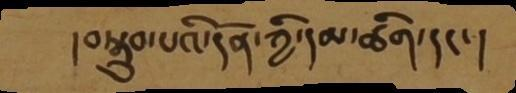།བསྒྲུབ་པའི་དོན་ཀྱི་དམ་ཚིག་དང་།
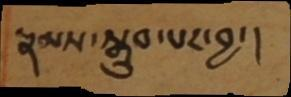རྣམས་སྒྲུབ་པར་བྱ་།
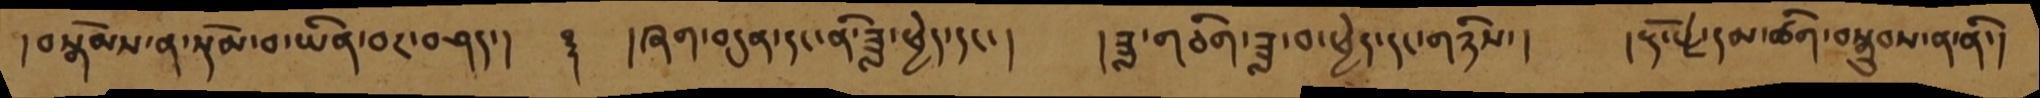།བསྒོམས་ན་སྡོམ་བ་ཡིན་བར་བཤད་།   ࿑  །ཞག་བདུན་དང་ནི་ཟླ་ཕྱེད་དང་།  །ཟླ་གཅིག་ཟླ་བ་ཕྱེད་དང་གཉིས་།   །རྡོ་རྗེ་དམ་ཚིག་བསྒྲུབས་ན་ནི་།
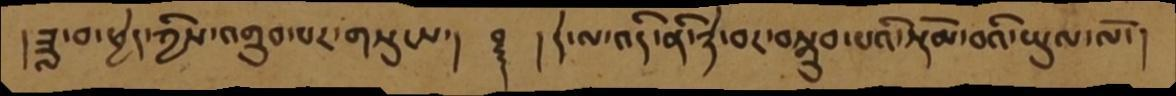།ཟླ་བ་ཕྱེད་ཀྱི་འགྲུབ་པར་གསུངས་།   ࿑   །དེ་ལ་འདི་ནི་ཉེ་བར་བསྒྲུབ་པའི་སྡོམ་བའི་ཡུལ་ལོ་།
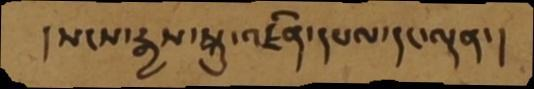།སངས་རྒྱས་སྐུ་འཛིན་དཔལ་དང་ལྡན་།
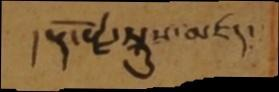།རྡོ་རྗེ་སྐུས་མཛད་
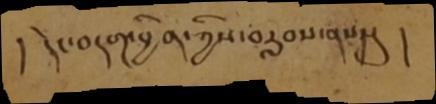། དེང་བདག་བྱིན་ཀྱིས་བརླབས་ནས་སུ།
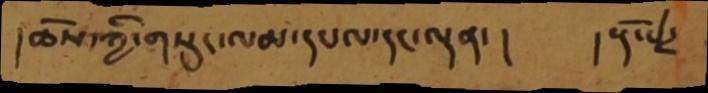།ཆོས་ཀྱི་གསུང་ལམ་དཔལ་དང་ལྡན་།    །རྡོ་རྗེ་
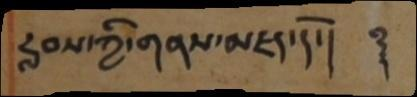རླབས་ཀྱི་གནས་མཛད་དོ་།  ࿑
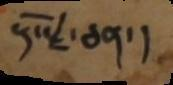རྡོ་རྗེ་ཅན་།
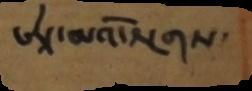ཨཱེ་མའོ་སྔགས་
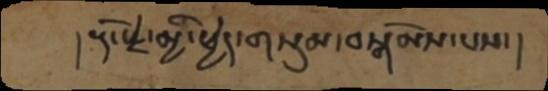།རྡོ་རྗེ་མྱི་ཕྱེད་གསུམ་བསྒོམས་པས་།
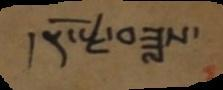།རྡོ་རྗེ་བཟླས་
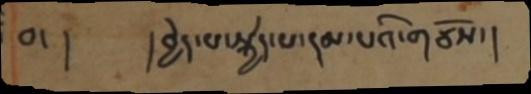བ་།   །བྱེད་པ་སྐྱེད་པ་དམ་པའི་གཙོས་།
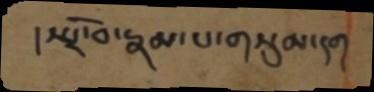།སྤྲོ་བ་རྣམ་པ་གསུམ་དག
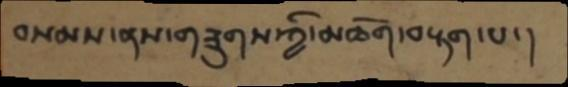བསམས་ནས་གཟུགས་ཀྱི་མཆོག་བརྟག་པ་།
